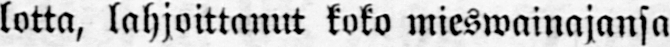lotta, lahjoittanut koko mieswainajansa
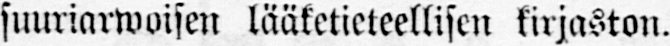suurinrwoisen lääketieteellisen kirjaston.
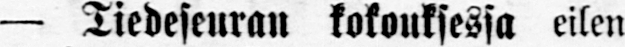— Tiedeseuran kokouksessa eilen
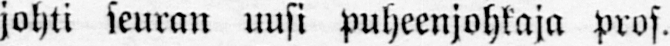johti seuran uusi puheenjohtaja Prof.
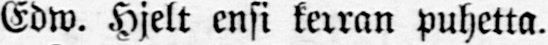Edw. Hjelt ensi kerran puhetta.
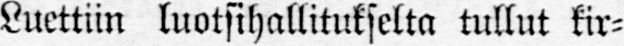Luettiin luotsihallitukselta tullut kir-
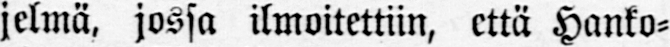jelmä, jossa ilmoitettiin, että Hanko-
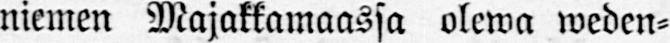niemen Majakkamaassa olewa weden-
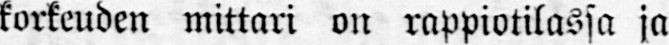korkeuden mittari on rappiotilassa ja
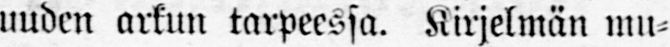uuden arkun tarpeessa. Kirjelmän mu-
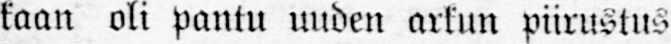kaan oli pantu uuden arkun piirustus
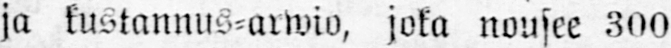ja kustannus-arwio, joka nousee 300
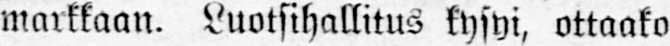markkaan. Luotsihallitus kysyi, ottaako
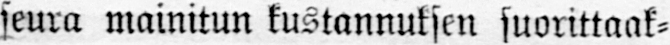seura mainitun kustannuksen suorittaak-
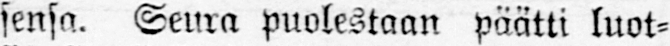sensa. Seura puolestaan päätti luot-
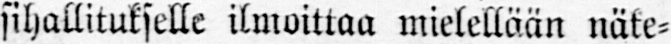sihallitukselle ilmoittaa mielellään näke-
